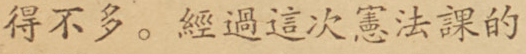得不多。經過這次憲法課的
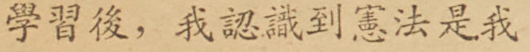學習後，我認識到憲法是我
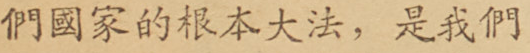們國家的根本大法，是我們
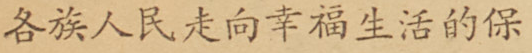各族人民走向幸福生活的保
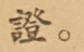證。
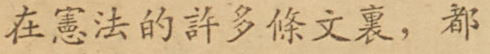在憲法的許多條文裏，都
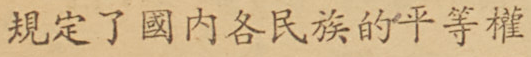規定了國內各民族的平等權
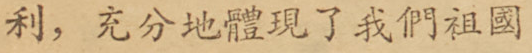利，充分地體現了我們祖國
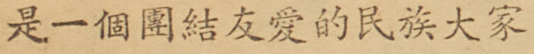是一個團結友愛的民族大家
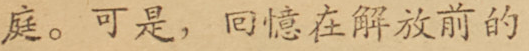庭。可是，囘憶在解放前的
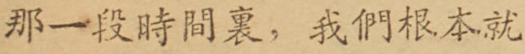那一段時間裏，我們根本就
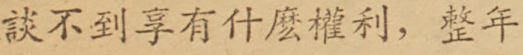談不到享有什麼權利，整年
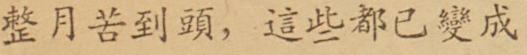整月苦到頭，這些都已變成
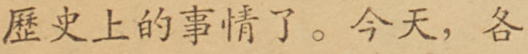歷史上的事情了。今天，各
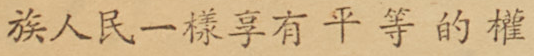族人民一樣享有平等的權
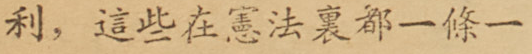利，這些在憲法裏都一條一
